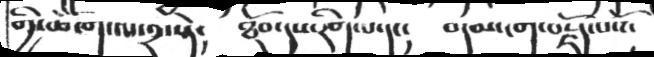གྱི་ཆོ་ག་ལ་༢་ཏེ།   ཐོབ་དུས་རིག་པ་དང།   བདམ་ངག་བརྗོད་པའོ།
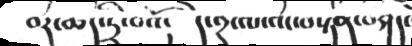བར་ཆད་དྲི་བའོ།   དེ་༢་ལ་འང་བསྟན་བཤད་
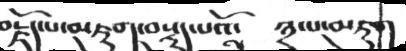བརྗོད་པ་མཇུག་བསྡུད་པའོ་   ༣་པ་མཇུག
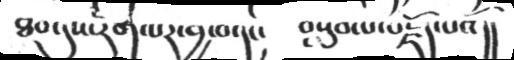ཐབ་དུས་རག་པར་བྱ་བ་དང།  བསླབ་པ་བརྗོད་པའོ།།
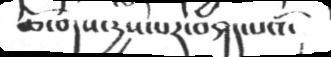ཆོ་གས་རྱས་པར་བཤད་པའོ།
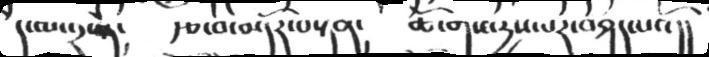ད་ལ་༢་སྟེ།  རྩ་བ་བདོར་བསྟན།  ཆོ་གས་རྱས་པར་བཤད་པའོ།།
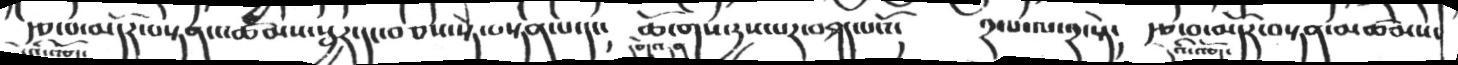རྩ་བ་མདོར་བསྟན་འཚམས་སྦྱར་དང་བཅས་སྟེ་བསྟན་པ་དང༴ ་ཆོ་གས་རྱས་པར་བཤད་པའོ༴  ༢་པ་ལ་༢་སྟེ༴  རྩ་བ་མདོར་བསྟན་མཚམས་
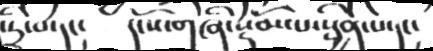དྲི་པ་དང།  དངོས་གཞི་སྡོམ་པ་སྦྱིན་པ་དང།
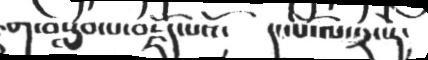ག་བསླབ་པ་བསྗོད་པའོ་   དང་པོ་ལ་༢་སྟེ་
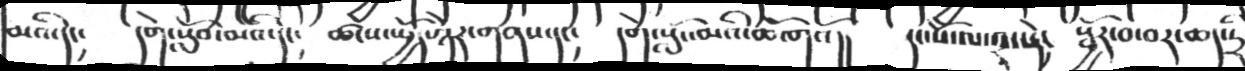མའ་དེང།  དགེ་སློབ་མའ་དིང།   ཚངས་སྤྱོད་ཉར་གནས་དང།   དགེ་སློང་མའི་ཆོསའོ།།  དང་པོ་ལ་༢་སྟེ།  སྦྱོར་བ་དང་བར་ཆད་དྲི
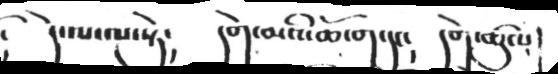དེ་ལ་ལ་སྟེ།  དགེ་མའི་ཆོ་ག་དང།  དགེ་ཚུལ
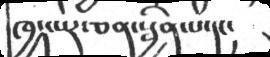ཁྱད་པར་ཅན་སྦྱིན་པ་དང།
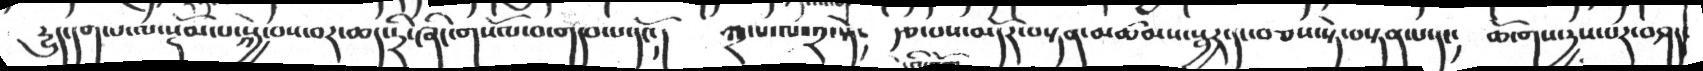རྱུད་དག་པ་ལ་སྡོམ་པ་སྐྱེ་བས་བར་ཆད་དྲི་ཞིང་གསོལ་བ་གདབ་པ་དའོ། ༢་པ་ལ༢་སྟེ། རྩ་པས་མདོར་བསྟན་མཚམས་སྦྱར་དང་བཅས་སྟེ་བསྟན་པ་དང།  ཆོ་གས་རྱས་པར་བཤད
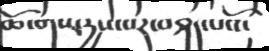ཆོ་གས་རྱས་པར་ནཤད་པའོ།
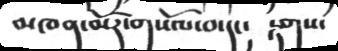མཁན་མོར་གསོལ་བ་དང།  རྟགས་
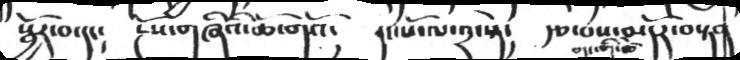སྦྱོར་བ་དང།   རྔོས་གཞིའི་ཆོ་གའོ།   དང་པོ་ལ་༢་སྟེ།   རྩ་བས་མདོར་བསྟན་
